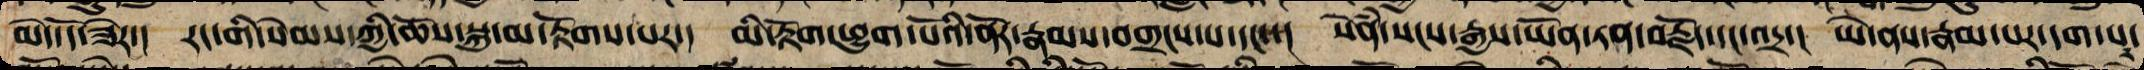མེད་དོ་ཟེར་། རང་གི་སེམས་ཀྱིས་ཆོས་སྐུ་མ་རྟོགས་པར་། མི་ལྟོགས་ཕྱུག་པོའི་ནོར་རྣམས་བགྲང་བ་དང་། སེཾན་སངས་རྒྱས་ཡོན་ཏན་བརྗོད་དང་འདྲ་། ཡེ་ནས་རྣམ་པར་དག་པར་
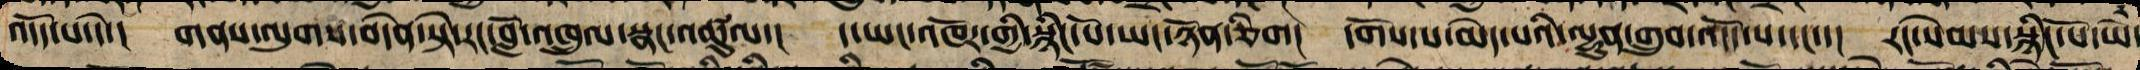འདོད་པ་དེ་། གནས་ལུགས་བདེན་སྟེ་རང་བློ་འཁྲུལ་སྣང་ཚུལ་། ད་ཡང་འཁོར་གྱི་སྙིང་པོ་ཡང་ཉོན་ཅིག། དགོས་པ་མེད་པའི་ལྷུན་གྲུབ་འདོད་པ་དང་། རང་སེམས་སྙིང་པོ་ཡེ་
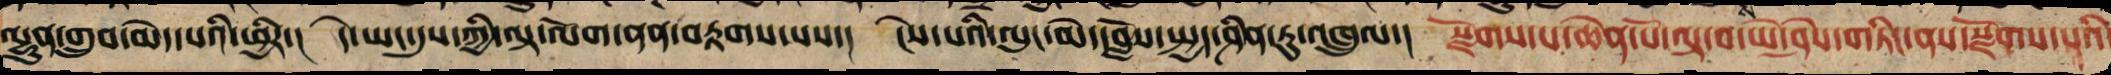ལྷུན་གྲུབ་མེད་པའི་ཕྱིར་། དེ་ཡང་དུས་ཀྱི་ལྟ་ལོག་ནན་བརྟགས་པས་། ངེས་པའི་ལུང་མེད་བློས་དཔྱད་ཤིན་ཏུ་འཁྲུལ་། སྫོགས་པ་ཆེན་པོ་ལྟ་བ་ཡེ་ཤེས་གཏིང་ནས་སྫོགས་པའི་
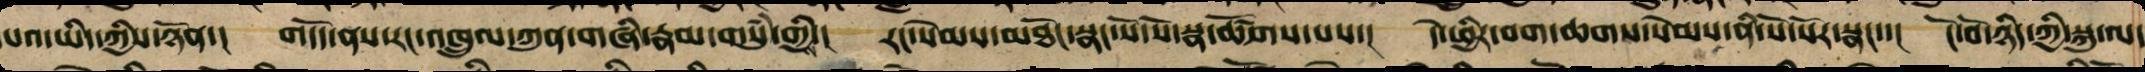དཔའ་ཡིད་ཀྱིས་ཉོན་། གདོད་མ་རང་འཁྲུལ་ཀུན་གཞི་རྣམ་གསུཾ་གྱིས་། རང་སེམས་མཐོང་སྣང་སོ་སོ་སྣ་ཚོགས་པས་། དེ་ཕྱིར་བག་ཆགས་སེམས་ནི་སོ་སོར་སྣང་། ངོ་བོ་ཉིད་ཀྱི་སྐུ་ལ་
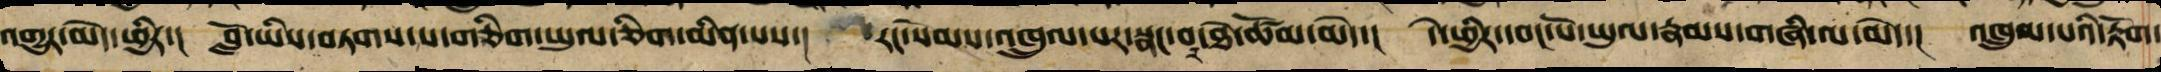འགྱུར་མེད་ཕྱིར་། བློ་ཡིས་བཏགས་པ་གཅིག་ཡུལ་གཅིག་མིན་པས་། རང་སེམས་འཁྲུལ་པར་སྣང་བར་ཐེ་ཚོམ་མེད་། དེ་ཕྱིར་དབང་པོ་ཡུལ་རྣམས་གཞི་ལ་མེད་། འཁྲུལ་པའི་རྟོག་
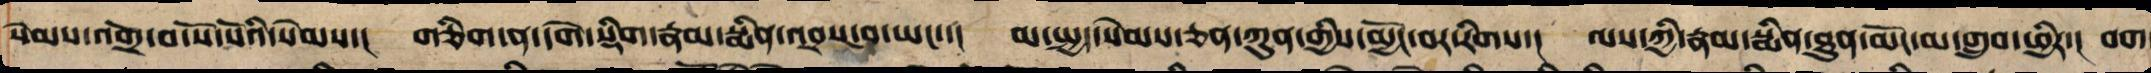སེམས་འགྲོ་བ་སོ་སོའི་སེམས་། གཅིག་ན་དགེ་སྡིག་རྣམ་སྨིན་འབྲས་བུ་ཡང་། མ་སྤྱད་སེམས་ཅན་ཀུན་གྱིས་མྱོང་བར་རིགས་། ལས་ཀྱི་རྣམ་སྨིན་ཐུན་མོང་མ་གྲུབ་ཕྱིར་། བག
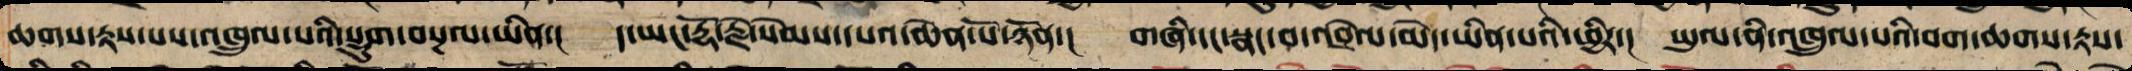ཆགས་རྟས་པས་འཁྲུལ་པའི་སྡུག་བསྔལ་ཡིན་། ད་ཡང་རྡོ་རྗེ་སེམས་དཔའ་ཆེན་པོ་ཉོན་། གཞི་དང་སྣང་བ་འབྲེལ་མེད་ཡིན་པའི་ཕྱིར་། ཡུལ་ནི་འཁྲུལ་པའི་བག་ཆགས་རྟས་
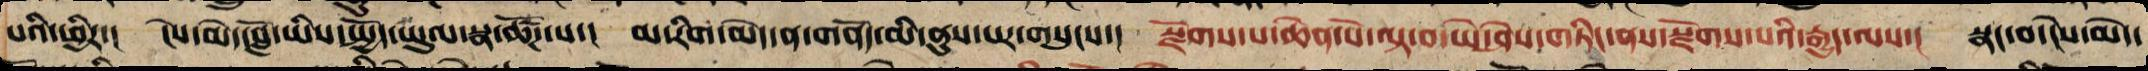པའི་ཕྱིར་། ངེས་མེད་བློ་ཡི་སྤྱོད་ཡུལ་སྣ་ཚོགས་པ་། མ་རིག་མེད་ན་གནོད་མི་ནུས་པར་གསུངས་། སྫོགས་པ་ཆེན་པོ་ལྟ་བ་ཡེ་ཤེས་གཏིང་ནས་སྫོགས་པའི་རྒྱུད་ལས་། སྣང་བ་ངེས་མེད་
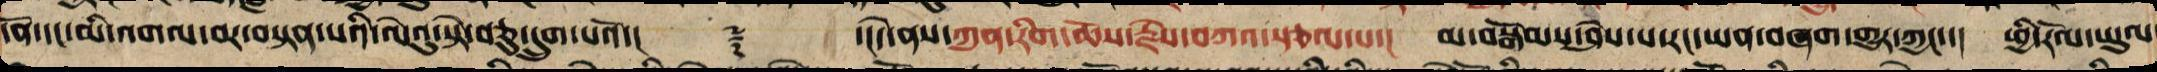དོན་དང་མི་འགལ་བར་བསྟན་པའི་ལེའུ་སྟེ་བཅུ་དྲུག་པའོ།་།  ༈ ་།།དེ་ནས་ཀུན་རིག་ཆོས་རྗེས་བཀའ་སྩལ་པ་། མ་བསྒོམས་ཤེས་པ་རང་ཡན་བཞག་གྱུར་ཀྱང་། ཕྱི་རོལ་ཡུལ
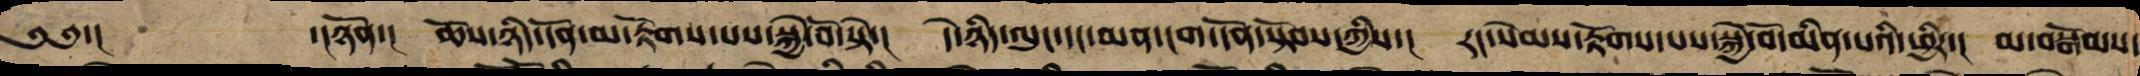༄༅་།  ་།ཉོན་། ཆོས་ཉིད་དོན་མ་རྟོགས་པས་སྐྱེ་བོ་སྟེ་། དེ་ཉིད་ལུང་དང་མན་ངག་དོན་སྟོབས་ཀྱིས་། རང་སེམས་རྟོགས་པས་སྐྱེ་བོ་མིན་པའི་ཕྱིར་། མ་བསྒོམས་
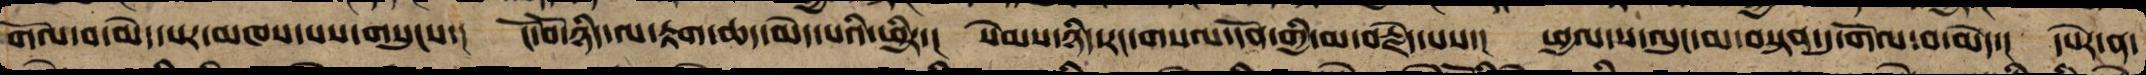གོལ་བ་མེད་པར་མཁས་པས་གསུངས་། ངོ་བོ་ཉིད་ལ་རྟག་ཆད་མེད་པའི་ཕྱིར་། སེམས་ཉིད་རང་གསལ་དོན་གྱིས་མ་བརྗེད་པས་། ཕྱལ་པ་ལུང་མ་བསྟན་དུ་གོལ་ས་མེད་། དཔེར་ན་
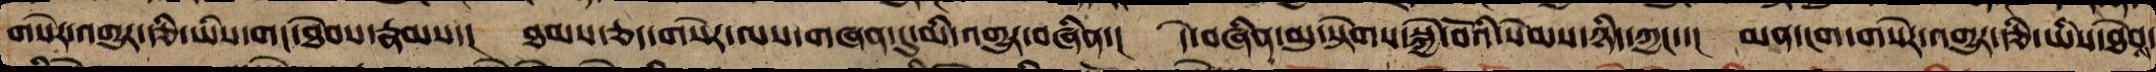གསེར་འགྱུར་རྩི་ཡིས་གང་ཐེབས་རྣམས་། ཐམས་ཅད་གསེར་ལས་གཞན་དུ་མི་འགྱུར་བཞིན་། དེ་བཞིན་མུ་སྟེགས་སྐྱེ་བོའི་སེམས་ཉིད་ཀྱང་། མན་ངག་གསེར་འགྱུར་རྩི་ཡིས་ཐེབས་
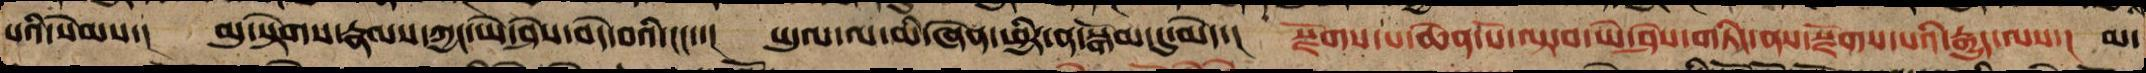པའི་སེམས་། མུ་སྟེགས་རྣམས་ཀྱང་ཡེ་ཤེས་བདེ་བའི་ངང་་། ཡུལ་ལ་མི་ཞེན་ཕྱིར་ན་བསྒོམ་དུ་མེད་། སྫོགས་པ་ཆེན་པོ་ལྟ་བ་ཡེ་ཤེས་གཏིང་ནས་སྫོགས་པའི་རྒྱུད་ལས་། མ་
